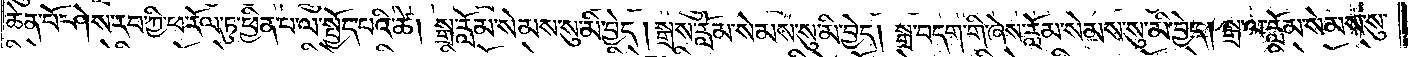ཆེན་པོ་ཤེས་རབ་ཀྱི་ཕ་རོལ་ཏུ་ཕྱིན་པ་ལ་སྤྱོད་པའི་ཚེ། སྒྲ་རློམ་སེམས་སུ་མི་བྱེད། སྒྲས་རློམ་སེམས་སུ་མི་བྱེད། སྒྲ་བདག་གི་ཞེས་རློམ་སེམས་སུ་མི་བྱེད། སྒྲ་ལ་རློམ་སེམས་སུ་
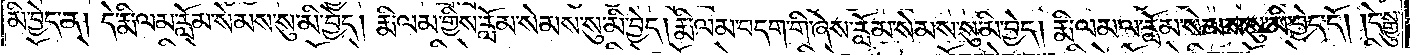མི་བྱེད་ན། དེ་རྨི་ལམ་རློམ་སེམས་སུ་མི་བྱེད། རྨི་ལམ་གྱིས་རློམ་སེམས་སུ་མི་བྱེད། རྨི་ལམ་བདག་གི་ཞེས་རློམ་སེམས་སུ་མི་བྱེད། རྨི་ལམ་ལ་རློམ་སེམས་སུ་མི་བྱེད་དོ། །དེ་སྒྱུ་
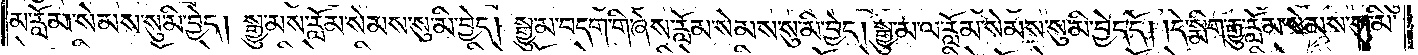མ་རློམ་སེམས་སུ་མི་བྱེད། སྒྱུ་མས་རློམ་སེམས་སུ་མི་བྱེད། སྒྱུ་མ་བདག་གི་ཞེས་རློམ་སེམས་སུ་མི་བྱེད། སྒྱུ་མ་ལ་རློམ་སེམས་སུ་མི་བྱེད་དོ། །དེ་སྨིག་རྒྱུ་རློམ་སེམས་སུ་མི་
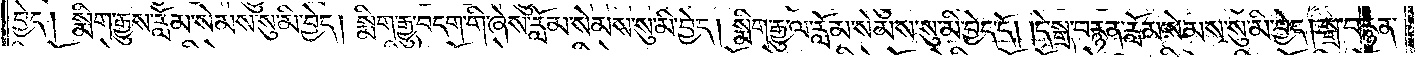བྱེད། སྨིག་རྒྱུས་རློམ་སེམས་སུ་མི་བྱེད། སྨིག་རྒྱུ་བདག་གི་ཞེས་རློམ་སེམས་སུ་མི་བྱེད། སྨིག་རྒྱུ་ལ་རློམ་སེམས་སུ་མི་བྱེད་དོ། །དེ་སྒྲ་བརྙན་རློམ་སེམས་སུ་མི་བྱེད། སྒྲ་བརྙན་
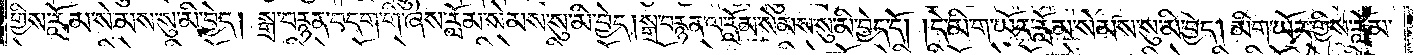གྱིས་རློམ་སེམས་སུ་མི་བྱེད། སྒྲ་བརྙན་བདག་གི་ཞེས་རློམ་སེམས་སུ་མི་བྱེད། སྒྲ་བརྙན་ལ་རློམ་སེམས་སུ་མི་བྱེད་དོ། །དེ་མིག་ཡོར་རློམ་སེམས་སུ་མི་བྱེད། མིག་ཡོར་གྱིས་རློམ་
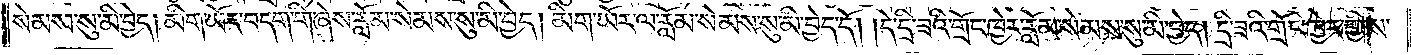སེམས་སུ་མི་བྱེད། མིག་ཡོར་བདག་གི་ཞེས་རློམ་སེམས་སུ་མི་བྱེད། མིག་ཡོར་ལ་རློམ་སེམས་སུ་མི་བྱེད་དོ། །དེ་དྲི་ཟའི་གྲོང་ཁྱེར་རློམ་སེམས་སུ་མི་བྱེད། དྲི་ཟའི་གྲོང་ཁྱེར་གྱིས་
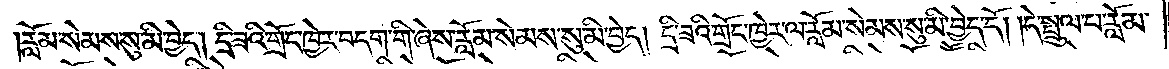རློམ་སེམས་སུ་མི་བྱེད། དྲི་ཟའི་གྲོང་ཁྱེར་བདག་གི་ཞེས་རློམ་སེམས་སུ་མི་བྱེད། དྲི་ཟའི་གྲོང་ཁྱེར་ལ་རློམ་སེམས་སུ་མི་བྱེད་དོ། །དེ་སྤྲུལ་པ་རློམ་
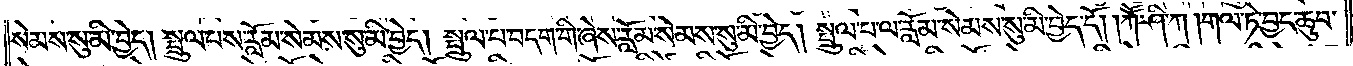སེམས་སུ་མི་བྱེད། སྤྲུལ་པས་རློམ་སེམས་སུ་མི་བྱེད། སྤྲུལ་པ་བདག་གི་ཞེས་རློམ་སེམས་སུ་མི་བྱེད། སྤྲུལ་པ་ལ་རློམ་སེམས་སུ་མི་བྱེད་དོ། །ཀཽ་ཤི་ཀ། གལ་ཏེ་བྱང་ཆུབ་
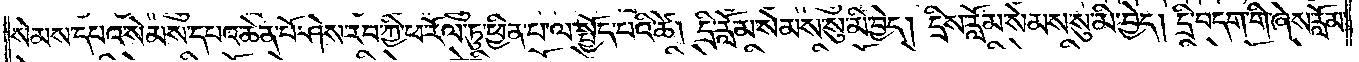སེམས་དཔའ་སེམས་དཔའ་ཆེན་པོ་ཤེས་རབ་ཀྱི་ཕ་རོལ་ཏུ་ཕྱིན་པ་ལ་སྤྱོད་པའི་ཚེ། དྲི་རློམ་སེམས་སུ་མི་བྱེད། དྲིས་རློམ་སེམས་སུ་མི་བྱེད། དྲི་བདག་གི་ཞེས་རློམ་
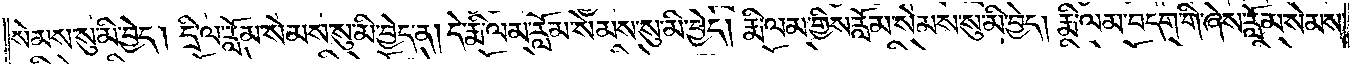སེམས་སུ་མི་བྱེད། དྲི་ལ་རློམ་སེམས་སུ་མི་བྱེད་ན། དེ་རྨི་ལམ་རློམ་སེམས་སུ་མི་བྱེད། རྨི་ལམ་གྱིས་རློམ་སེམས་སུ་མི་བྱེད། རྨི་ལམ་བདག་གི་ཞེས་རློམ་སེམས་
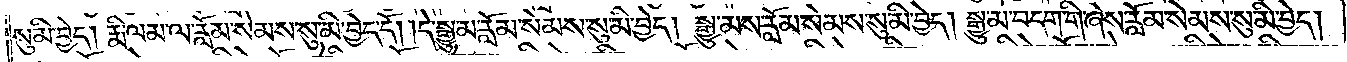སུ་མི་བྱེད། རྨི་ལམ་ལ་རློམ་སེམས་སུ་མི་བྱེད་དོ། །དེ་སྒྱུ་མ་རློམ་སེམས་སུ་མི་བྱེད། སྒྱུ་མས་རློམ་སེམས་སུ་མི་བྱེད། སྒྱུ་མ་བདག་གི་ཞེས་རློམ་སེམས་སུ་མི་བྱེད།
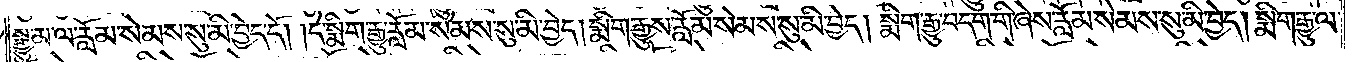སྒྱུ་མ་ལ་རློམ་སེམས་སུ་མི་བྱེད་དོ། །དེ་སྨིག་རྒྱུ་རློམ་སེམས་སུ་མི་བྱེད། སྨིག་རྒྱུས་རློམ་སེམས་སུ་མི་བྱེད། སྨིག་རྒྱུ་བདག་གི་ཞེས་རློམ་སེམས་སུ་མི་བྱེད། སྨིག་རྒྱུ་ལ་
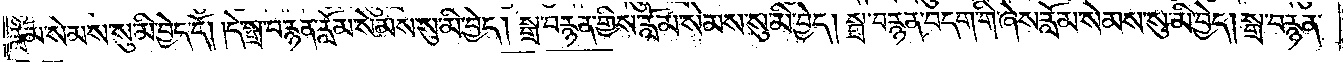རློམ་སེམས་སུ་མི་བྱེད་དོ། །དེ་སྒྲ་བརྙན་རློམ་སེམས་སུ་མི་བྱེད། སྒྲ་བརྙན་གྱིས་རློམ་སེམས་སུ་མི་བྱེད། སྒྲ་བརྙན་བདག་གི་ཞེས་རློམ་སེམས་སུ་མི་བྱེད། སྒྲ་བརྙན་
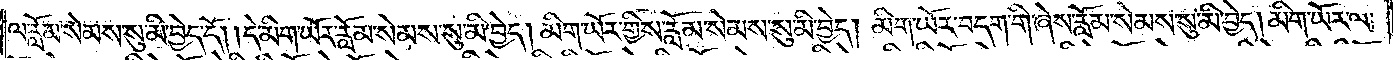ལ་རློམ་སེམས་སུ་མི་བྱེད་དོ། །དེ་མིག་ཡོར་རློམ་སེམས་སུ་མི་བྱེད། མིག་ཡོར་གྱིས་རློམ་སེམས་སུ་མི་བྱེད། མིག་ཡོར་བདག་གི་ཞེས་རློམ་སེམས་སུ་མི་བྱེད། མིག་ཡོར་ལ་
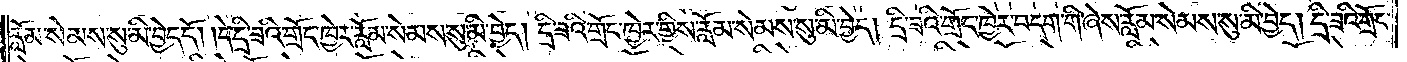རློམ་སེམས་སུ་མི་བྱེད་དོ། །དེ་དྲི་ཟའི་གྲོང་ཁྱེར་རློམ་སེམས་སུ་མི་བྱེད། དྲི་ཟའི་གྲོང་ཁྱེར་གྱིས་རློམ་སེམས་སུ་མི་བྱེད། དྲི་ཟའི་གྲོང་ཁྱེར་བདག་གི་ཞེས་རློམ་སེམས་སུ་མི་བྱེད། དྲི་ཟའི་གྲོང་
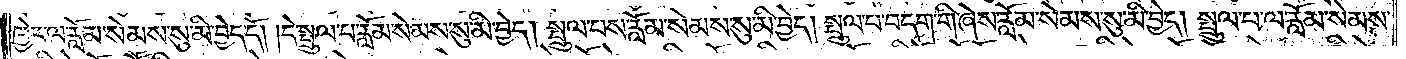ཁྱེར་ལ་རློམ་སེམས་སུ་མི་བྱེད་དོ། །དེ་སྤྲུལ་པ་རློམ་སེམས་སུ་མི་བྱེད། སྤྲུལ་པས་རློམ་སེམས་སུ་མི་བྱེད། སྤྲུལ་པ་བདག་གི་ཞེས་རློམ་སེམས་སུ་མི་བྱེད། སྤྲུལ་པ་ལ་རློམ་སེམས་
